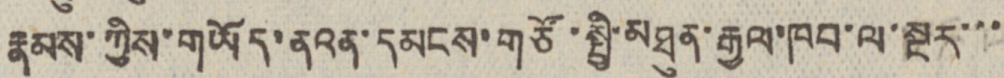རྣམས་ཀྱིས་གཡོད་ནའན་དམངས་གཙོ་སྤྱི་མཐུན་རྒྱལ་ཁབ་ལ་སྔར་་་
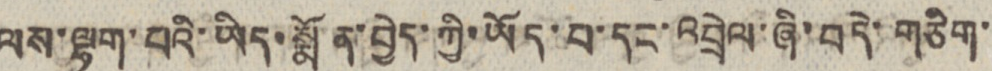ལས་ལྷག་པའི་ཡིད་སྨོན་བྱེད་ཀྱི་ཡོད་པ་དང་འབྲེལ་ཞི་བདེ་གཅིག་
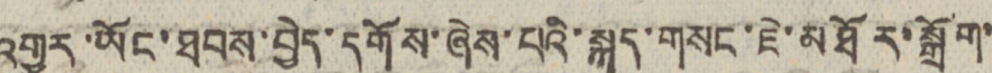འགྱུར་ཡོང་ཐབས་བྱེད་དགོས་ཞེས་པའི་སྐད་གསང་ཇེ་མཐོར་སྒྲོག་
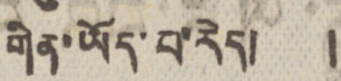གིན་ཡོད་པ་རེད། །
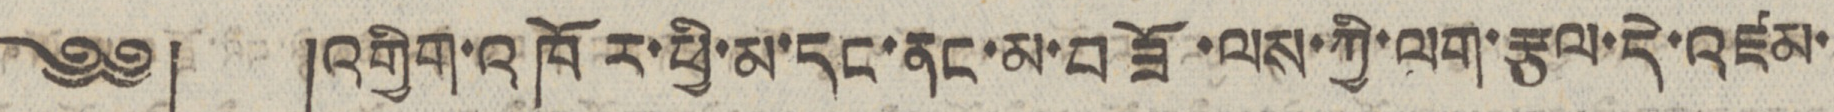༄༅། །འགྱིག་འཁོར་ཕྱི་མ་དང་ནང་མ་བཟོ་ལས་ཀྱི་ལག་རྩལ་དེ་འཛམ་
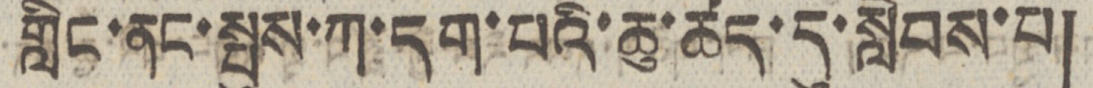གླིང་ནང་སྤུས་ཀ་དག་པའི་ཆུ་ཚད་དུ་སླེབས་པ།
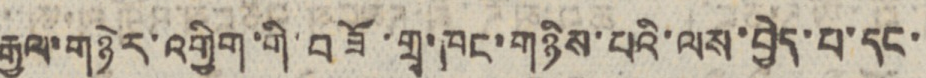རྒྱལ་གཉེར་འགྱིག་གི་བཟོ་གྲྭ་ཁང་གཉིས་པའི་ལས་བྱེད་པ་དང་
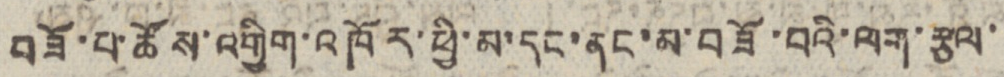བཟོ་པ་ཚོས་འགྱིག་འཁོར་ཕྱི་མ་དང་ནང་མ་བཟོ་བའི་ལག་རྩལ་
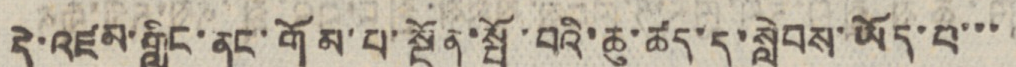དེ་འཛམ་གླིང་ནང་གོམ་པ་སྔོན་སྤོ་བའི་ཆུ་ཚད་དུ་སླེབས་ཡོད་པ་་་
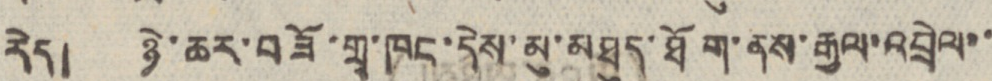རེད། ཉེར་ཆར་བཟོ་གྲྭ་ཁང་དེས་མུ་མཐུད་ཐོག་ནས་རྒྱལ་འབྲེལ་་
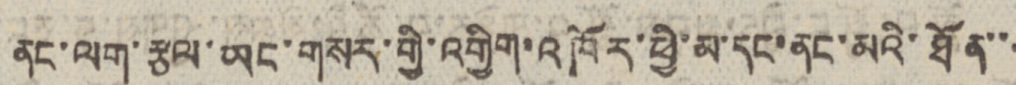ནང་ལག་རྩལ་ཡང་གསར་གྱི་འགྱིག་འཁོར་ཕྱེ་མ་དང་ནང་མའི་ཐོན་་
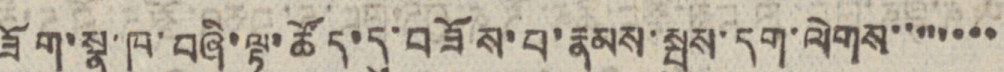ཟོག་སྣ་ཁ་བཞི་ལྟ་ཚོད་དུ་བཟོས་པ་རྣམས་སྤུས་དག་ལེགས་་་་་་་་
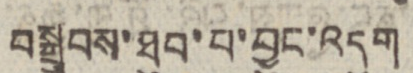བསྒྲུབས་ཐུབ་པ་བྱུང་འདུག
